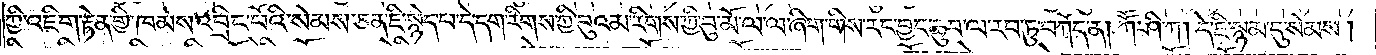ཀྱི་འཇིག་རྟེན་གྱི་ཁམས་འབྲིང་པོའི་སེམས་ཅན་ཇི་སྙེད་པ་དེ་དག་རིགས་ཀྱི་བུའམ་རིགས་ཀྱི་བུ་མོ་ལ་ལ་ཞིག་གིས་རང་བྱང་ཆུབ་ལ་རབ་ཏུ་བཀོད་ན། ཀཽ་ཤི་ཀ། དེ་ཇི་སྙམ་དུ་སེམས།
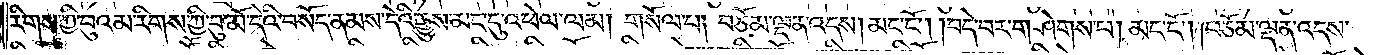རིགས་ཀྱི་བུའམ་རིགས་ཀྱི་བུ་མོ་དེའི་བསོད་ནམས་དེའི་རྒྱུས་མང་དུ་འཕེལ་ལམ། གསོལ་པ། བཅོམ་ལྡན་འདས། མང་ངོ༌། །བདེ་བར་གཤེགས་པ། མང་ངོ༌། །བཅོམ་ལྡན་འདས་
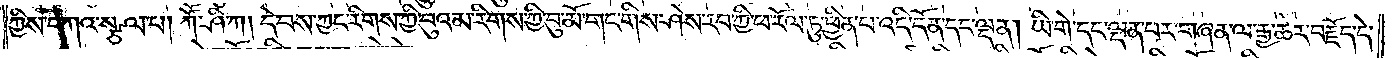ཀྱིས་བཀའ་སྩལ་པ། ཀཽ་ཤི་ཀ། དེ་བས་ཀྱང་རིགས་ཀྱི་བུའམ་རིགས་ཀྱི་བུ་མོ་གང་གིས་ཤེས་རབ་ཀྱི་ཕ་རོལ་ཏུ་ཕྱིན་པ་འདི་དོན་དང་ལྡན། ཡི་གེ་དང་ལྡན་པར་གཞན་ལ་རྒྱ་ཆེར་བརྗོད་དེ་
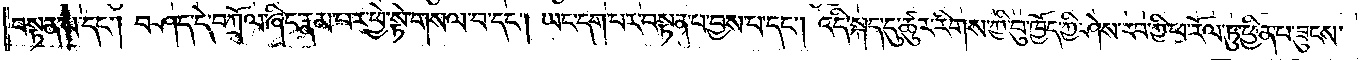བསྟན་པ་དང༌། བཤད་དེ་བཀྲོལ་ཞིང་རྣམ་པར་ཕྱེ་སྟེ་གསལ་བ་དང༌། ཡང་དག་པར་བསྟན་པ་བྱས་པ་དང༌། འདི་སྐད་དུ་ཚུར་རིགས་ཀྱི་བུ་ཁྱོད་ཀྱིས་ཤེས་རབ་ཀྱི་ཕ་རོལ་ཏུ་ཕྱིན་པ་ཟུངས་
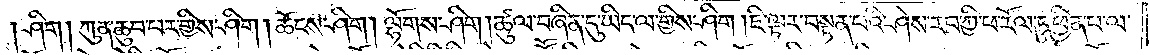ཤིག །ཀུན་ཆུབ་པར་གྱིས་ཤིག །ཆོངས་ཤིག །ལྷོགས་ཤིག །ཚུལ་བཞིན་དུ་ཡིད་ལ་གྱིས་ཤིག །ཇི་ལྟར་བསྟན་པའི་ཤེས་རབ་ཀྱི་ཕ་རོལ་ཏུ་ཕྱིན་པ་ལ་
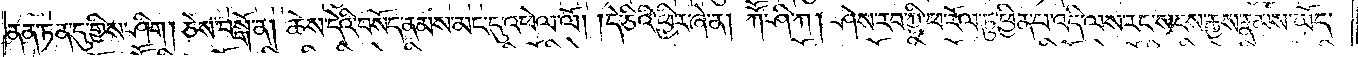ནན་ཏན་དུ་གྱིས་ཤིག། ཅེས་བསྒོ་ན། ཆེས་དེའི་བསོད་ནམས་མང་དུ་འཕེལ་ལོ། །དེ་ཅིའི་ཕྱིར་ཞེ་ན། ཀཽ་ཤི་ཀ། ཤེས་རབ་ཀྱི་ཕ་རོལ་ཏུ་ཕྱིན་པ་འདི་ལས་རང་སངས་རྒྱས་རྣམས་ཡོད་
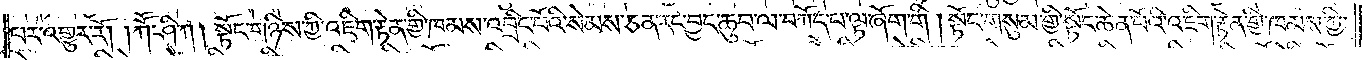པར་འགྱུར་རོ། །ཀཽ་ཤི་ཀ། སྟོང་གཉིས་ཀྱི་འཇིག་རྟེན་གྱི་ཁམས་འབྲིང་པོའི་སེམས་ཅན་རང་བྱང་ཆུབ་ལ་བཀོད་པ་ལྟ་ཞོག་གི །སྟོང་གསུམ་གྱི་སྟོང་ཆེན་པོའི་འཇིག་རྟེན་གྱི་ཁམས་ཀྱི་
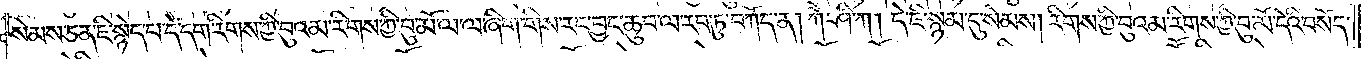སེམས་ཅན་ཇི་སྙེད་པ་དེ་དག་རིགས་ཀྱི་བུའམ་རིགས་ཀྱི་བུ་མོ་ལ་ལ་ཞིག་གིས་རང་བྱང་ཆུབ་ལ་རབ་ཏུ་བཀོད་ན། ཀཽ་ཤི་ཀ། དེ་ཇི་སྙམ་དུ་སེམས། རིགས་ཀྱི་བུའམ་རིགས་ཀྱི་བུ་མོ་དེའི་བསོད་
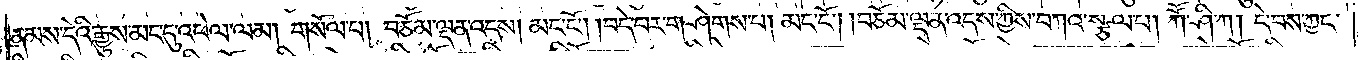ནམས་དེའི་རྒྱུས་མང་དུ་འཕེལ་ལམ། གསོལ་པ། བཅོམ་ལྡན་འདས། མང་ངོ༌། །བདེ་བར་གཤེགས་པ། མང་ངོ༌། །བཅོམ་ལྡན་འདས་ཀྱིས་བཀའ་སྩལ་པ། ཀཽ་ཤི་ཀ། དེ་བས་ཀྱང་
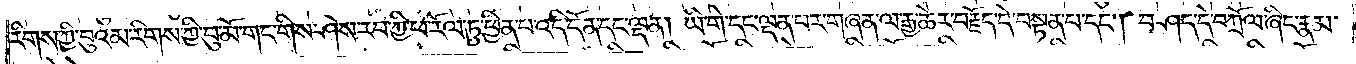རིགས་ཀྱི་བུའམ་རིགས་ཀྱི་བུ་མོ་གང་གིས་ཤེས་རབ་ཀྱི་ཕ་རོལ་ཏུ་ཕྱིན་པ་འདི་དོན་དང་ལྡན། ཡི་གེ་དང་ལྡན་པར་གཞན་ལ་རྒྱ་ཆེར་བརྗོད་དེ་བསྟན་པ་དང༌། བཤད་དེ་བཀྲོལ་ཞིང་རྣམ་
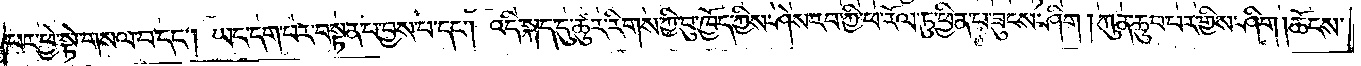པར་ཕྱེ་སྟེ་གསལ་བ་དང༌། ཡང་དག་པར་བསྟན་པ་བྱས་པ་དང༌། འདི་སྐད་དུ་ཚུར་རིགས་ཀྱི་བུ་ཁྱོད་ཀྱིས་ཤེས་རབ་ཀྱི་ཕ་རོལ་ཏུ་ཕྱིན་པ་ཟུངས་ཤིག །ཀུན་ཆུབ་པར་གྱིས་ཤིག། ཆོངས་
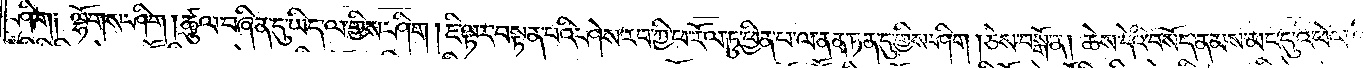ཤིག༑ ལྷོགས་ཤིག །ཚུལ་བཞིན་དུ་ཡིད་ལ་གྱིས་ཤིག །ཇི་ལྟར་བསྟན་པའི་ཤེས་རབ་ཀྱི་ཕ་རོལ་ཏུ་ཕྱིན་པ་ལ་ནན་ཏན་དུ་གྱིས་ཤིག། ཅེས་བསྒོ་ན། ཆེས་དེའི་བསོད་ནམས་མང་དུ་འཕེལ་ལོ༎
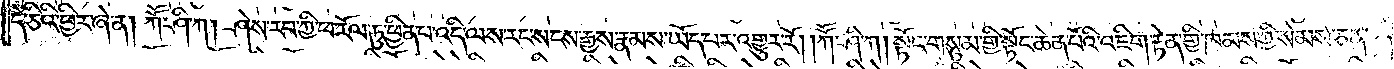དེ་ཅིའི་ཕྱིར་ཞེ་ན། ཀཽ་ཤི་ཀ། ཤེས་རབ་ཀྱི་ཕ་རོལ་ཏུ་ཕྱིན་པ་འདི་ལས་རང་སངས་རྒྱས་རྣམས་ཡོད་པར་འགྱུར་རོ། །ཀཽ་ཤི་ཀ། སྟོང་གསུམ་གྱི་སྟོང་ཆེན་པོའི་འཇིག་རྟེན་གྱི་ཁམས་ཀྱི་སེམས་ཅན་
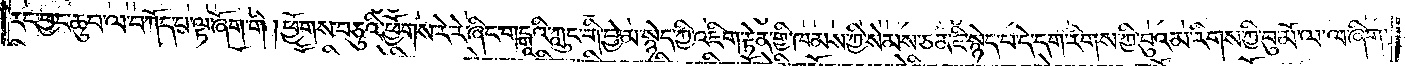རང་བྱང་ཆུབ་ལ་བཀོད་པ་ལྟ་ཞོག་གི །ཕྱོགས་བཅུའི་ཕྱོགས་རེ་རེ་ཞིང་གངྒཱའི་ཀླུང་གི་བྱེ་མ་སྙེད་ཀྱི་འཇིག་རྟེན་གྱི་ཁམས་ཀྱི་སེམས་ཅན་ཇི་སྙེད་པ་དེ་དག་རིགས་ཀྱི་བུའམ་རིགས་ཀྱི་བུ་མོ་ལ་ལ་ཞིག་
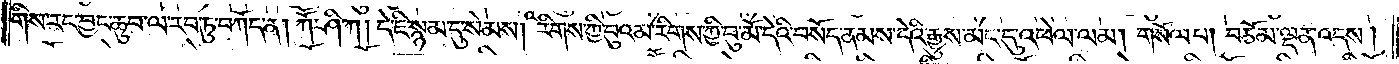གིས་རང་བྱང་ཆུབ་ལ་རབ་ཏུ་བཀོད་ན། ཀཽ་ཤི་ཀ། དེ་ཇི་སྙམ་དུ་སེམས། རིགས་ཀྱི་བུའམ་རིགས་ཀྱི་བུ་མོ་དའི་བསོད་ནམས་དེའི་རྒྱུས་མང་དུ་འཕེལ་ལམ། གསོལ་པ། བཅོམ་ལྡན་འདས།
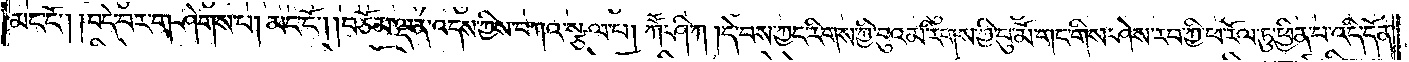མང་ངོ༌། །བདེ་བར་གཤེགས་པ། མང་ངོ༌། །བཅོམ་ལྡན་འདས་ཀྱིས་བཀའ་སྩལ་པ། ཀཽ་ཤི་ཀ། དེ་བས་ཀྱང་རིགས་ཀྱི་བུའམ་རིགས་ཀྱི་བུ་མོ་གང་གིས་ཤེས་རབ་ཀྱི་ཕ་རོལ་ཏུ་ཕྱིན་པ་འདི་དོན་
